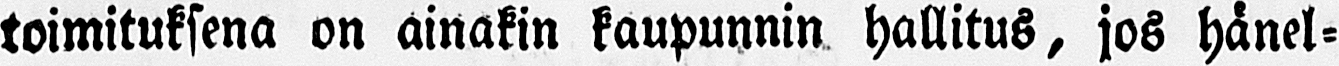toimituksena on ainakin kaupunnin hallitus, jos hänel-
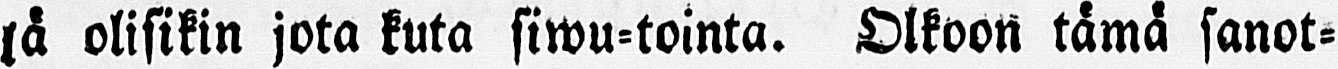lä olisikin jota kuta siwu-tointa. Olkoon tämä sanot-
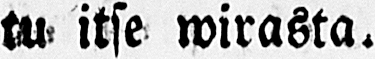tu itse wirasta.
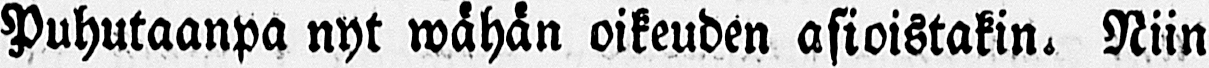Puhutaanpa nyt wähän oikeuden asioistakin. Niin
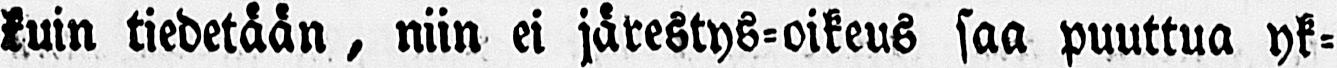kuin tiedetään, niin ei järestys-oikeus saa puuttua yk-
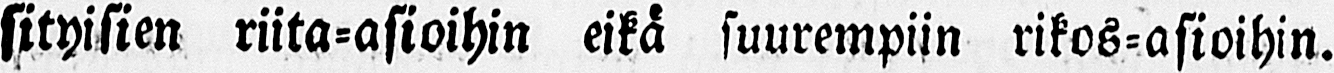sityisien riita-asioihin eikä suurempiin rikos-asioihin.
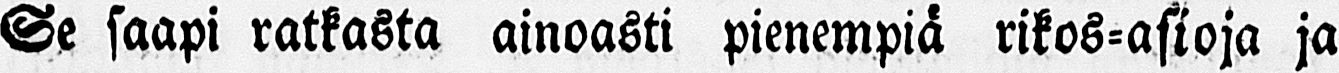Se saapi ratkasta ainoasti pienempiä rikos-asioja ja
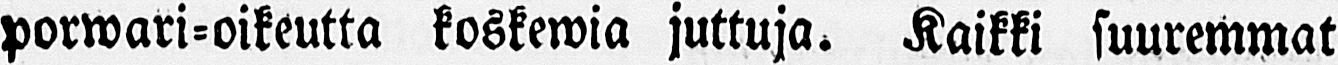porwari-oikeutta koskewia juttuja. Kaikki suuremmat
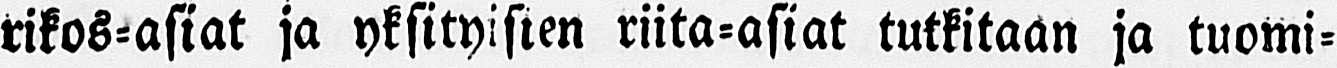rikos-asiat ja yksityisien riita-asiat tutkitaan ja tuomi-
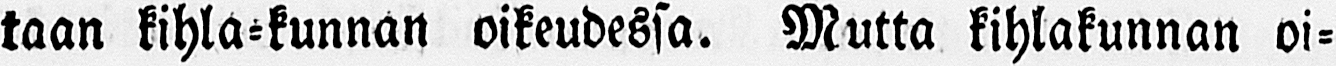taan kihla-kunnan oikeudessa. Mutta kihlakunnan oi-
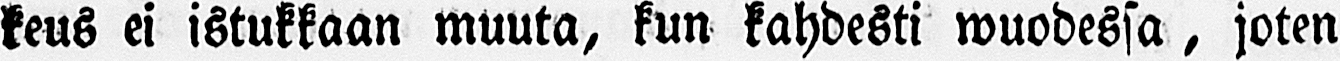keus ei istukkaan muuta, kun kahdesti wuodessa, joten
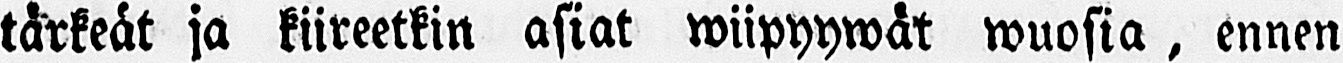tärkeät ja kiireetkin asiat wiipyywät wuosia, ennen
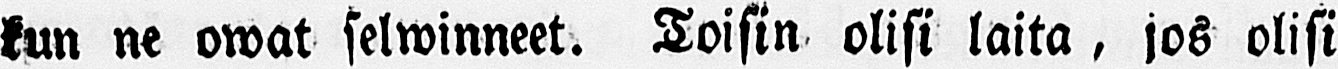kun ne owat selwinneet. Toisin olisi laita, jos olisi
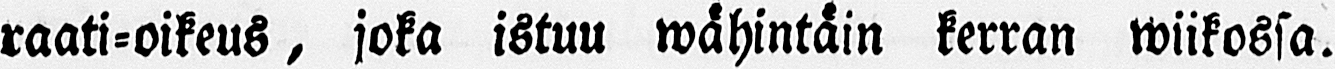raati-oikeus, joka istuu wähintäin kerran wiikossa.
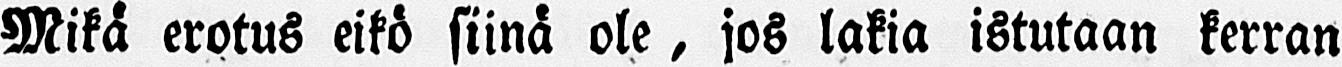Mikä erotus eikö siinä ol e, jos lakia istutaan kerran
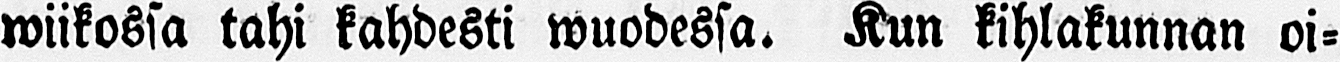wiikossa tahi kahdesti wuodessa. Kun kihlakunnan oi-
